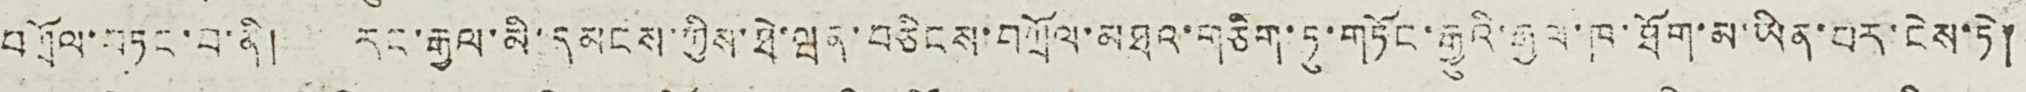བཀྲོལ་བཏང་བ་ནི། རང་རྒྱལ་མི་དམངས་ཀྱིས་ཐེ་ཝན་བཅིངས་བཀྲོལ་མཐའ་གཅིག་ཏུ་གཏོང་རྒྱུའི་རྒྱབ་ཁ་ཐོག་མ་ཡིན་པར་ངེས་ཏེ།
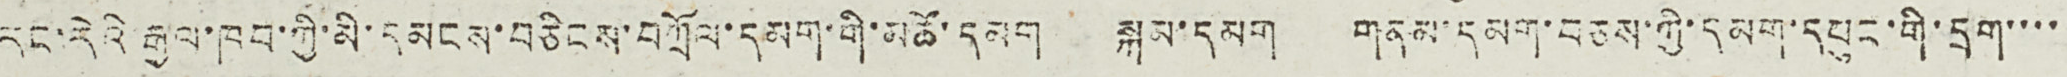རང་རེའི་རྒྱལ་ཁབ་ཀྱི་མི་དམངས་བཅིངས་བཀྲོལ་དམག་གི་མཚོ་དམག སྐམ་དམག གནམ་དམག་བཅས་ཀྱི་དམག་དཔུང་གི་དྲག་་་་
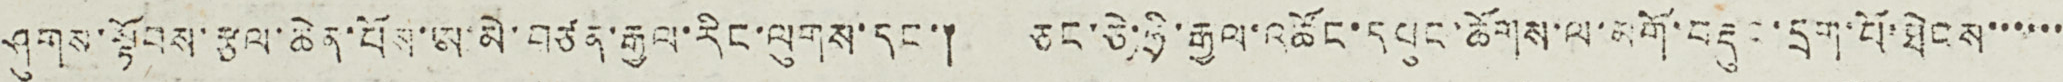ཤུགས་སྟོབས་རྩལ་ཆེན་པོས་ཨ་མེ་བཙན་རྒྱལ་རིང་ལུགས་དང་། ཅང་ཅེ་ཧྲི་རྒྱལ་འཚོང་དཔུང་ཚོགས་ལ་མགོ་བརྡུལ་དྲག་པོ་ཐེབས་་་་་་
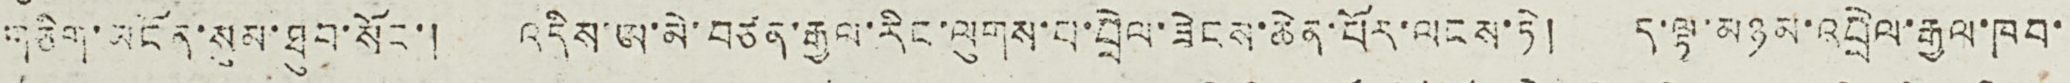གཅིག་མངོན་སུམ་ཐུབ་སོང་། འདིས་ཨ་མེ་བཙན་རྒྱལ་རིང་ལུགས་པ་བྲེལ་ཟེངས་ཆེན་པོར་ལངས་ཏེ། ད་ལྟ་མཉམ་འབྲེལ་རྒྱལ་ཁབ་
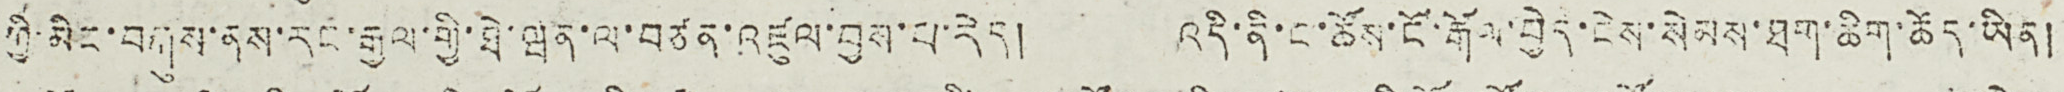ཀྱི་མིང་བརྐུས་ནས་རང་རྒྱལ་གྱི་ཐེ་ཝན་ལ་བཙན་འཛུལ་བྱས་པ་རེད། འདི་ནི་ང་ཚོས་ངོ་རྒོལ་བྱེད་ངེས་སེམས་ཐག་ཆིག་ཆོད་ཡིན།
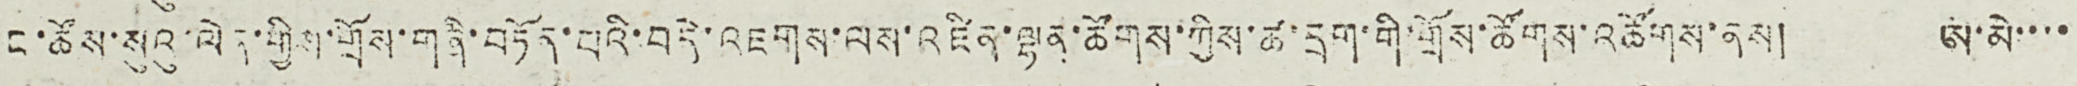ང་ཚོས་སུའུ་ལེན་གྱིས་གྲོས་གཞི་བཏོན་པའི་བདེ་འཇགས་ལས་འཛིན་ལྷན་ཚོགས་ཀྱིས་ཚ་དྲག་གི་གྲོས་ཚོགས་འཚོགས་ནས། ཨ་མེ་་་་
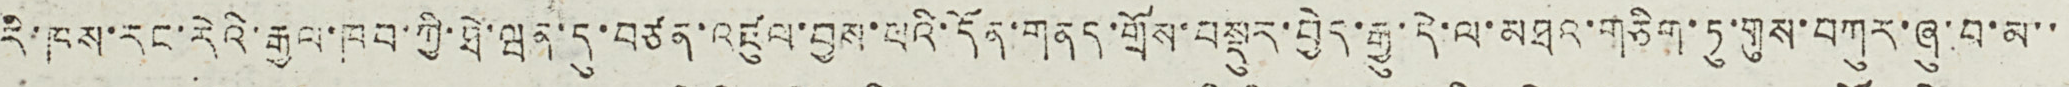རི་ཁས་རང་རེའི་རྒྱལ་ཁབ་ཀྱི་ཐེ་ཝན་དུ་བཙན་འཛུལ་བྱས་པའི་དོན་གནད་གྲོས་བསྡུར་བྱེད་རྒྱུ་དེ་ལ་མཐའ་གཅིག་ཏུ་གུས་བཀུར་ཞུ་བ་མ་་
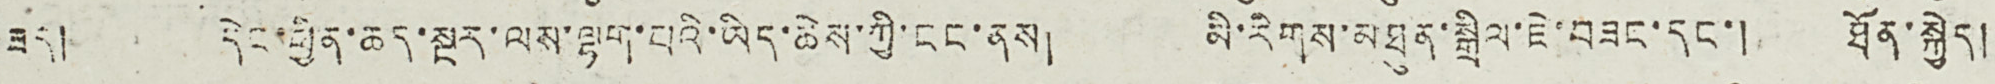ཟད། དེང་ཕྱིན་ཆད་སྔར་ལས་ལྷག་པའི་ཡིད་ཆེས་ཀྱི་ངང་ནས། མི་རིགས་མཐུན་སྒྲིལ་ཇེ་བཟང་དང་། ཐོན་སྐྱེད།
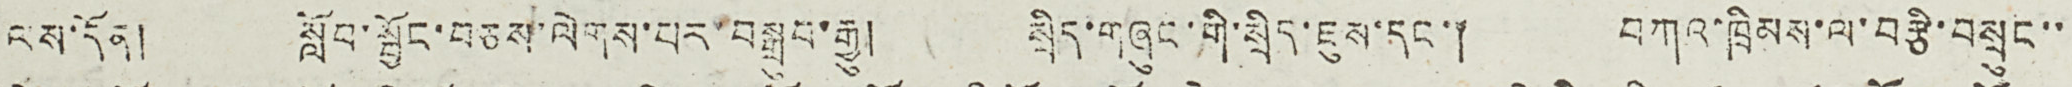ལས་དོན། སློབ་སྦྱོང་བཅས་ལེགས་པར་བསྒྲུབ་རྒྱུ། སྲིད་གཞུང་གི་སྲིད་ཇུས་དང་། བཀའ་ཁྲིམས་ལ་བརྩི་བསྲུང་་
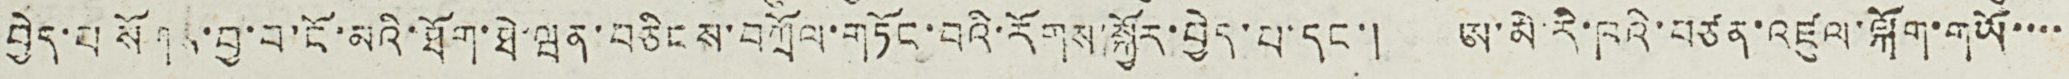བྱེད་པ སོགས་བྱ་བ་ངོ་མའི་ཐོག་ཐེ་ཝན་བཅིངས་བཀྲོལ་གཏོང་བའི་རོགས་སྐྱོར་བྱེད་པ་དང་། ཨ་མེ་རི་ཁའི་བཙན་འཛུལ་ལྐོག་གཡོ་་་་
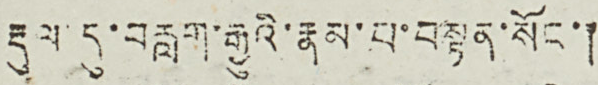རྡུལ་དུ་བརླག་རྒྱུའི་རྣམ་པ་བསྟན་སོང་།
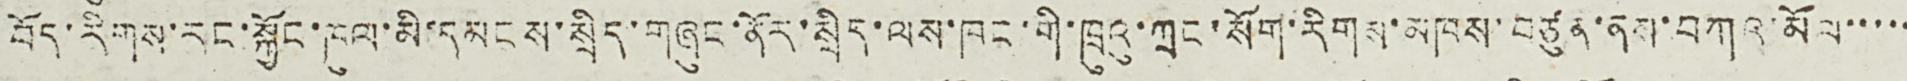བོད་རིགས་རང་སྐྱོང་ཁུལ་མི་དམངས་སྲིད་གཞུང་ནོར་སྲིད་ལས་ཁང་གི་ཁྲུའུ་ཀྲང་སོག་རིགས་མཁས་བཙུན་ནས་བཀའ་མོལ་་་་་
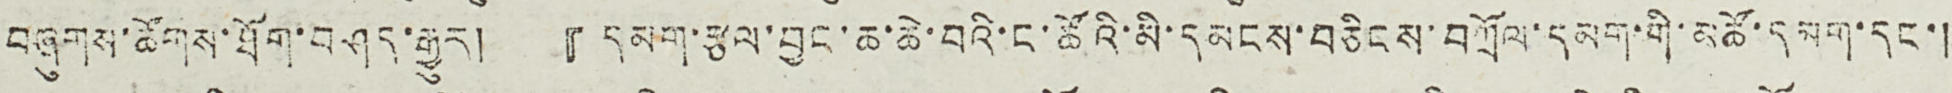བཞུགས་ཚོགས་ཐོག་བཤད་རྒྱུར། 『དམག་རྩལ་བྱང་ཆ་ཆེ་བའི་ང་ཚོའི་མི་དམངས་བཅིངས་བཀྲོལ་དམག་གི་མཚོ་དམག་དང་།
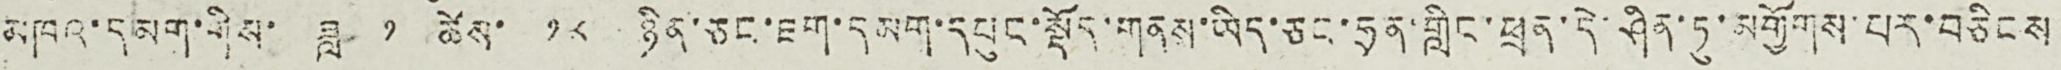མཁའ་དམག་གིས་ ཟླ ༡ ཚེས་ ༡༨ ཉིན་ཅང་ཇག་དམག་དཔུང་སྡོད་གནས་ཡིད་ཅང་ཧྲན་གླིང་ཕྲན་དེ་ཤིན་ཏུ་མགྱོགས་པར་བཅིངས
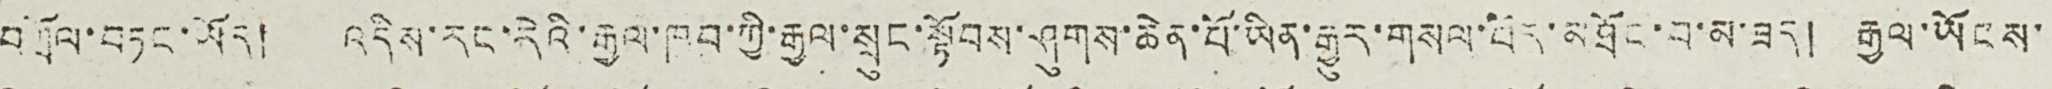བཀྲོལ་བཏང་ཡོད། འདིས་རང་རེའི་རྒྱལ་ཁབ་གྱི་རྒྱལ་སྲུང་སྟོབས་ཤུགས་ཆེན་པོ་ཡིན་རྒྱུར་གསལ་པོར་མཐོང་བ་མ་ཟད། རྒྱལ་ཡོངས་
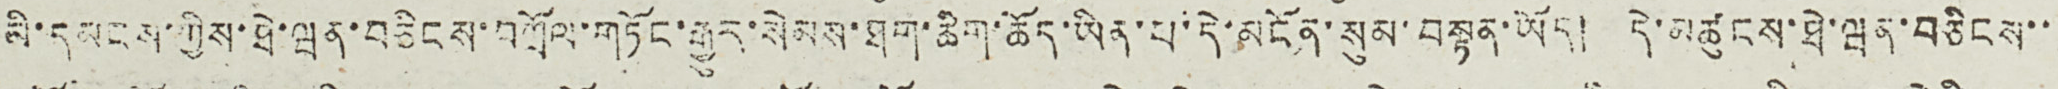མི་དམངས་གྱིས་ཐེ་ཝན་བཅིངས་བཀྲོལ་གཏོང་རྒྱུར་སེམས་ཐག་ཆིག་ཆོད་ཡིན་པ་དེ་མངོན་སུམ་བསྟན་ཡོད། དེ་མཚུངས་ཐེ་ཝན་བཅིངས་་
